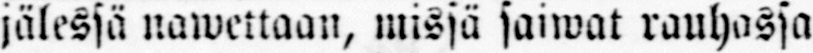jälessä nawettaan, missä saiwat rauhassa
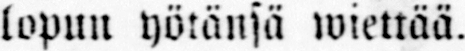lopun yötänsä wiettää.
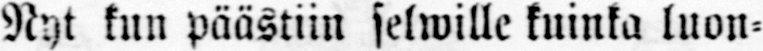Nyt kun päästiin selwille kuinka luon-
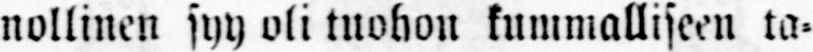nollinen syy oli tuohon kummalliseen ta-
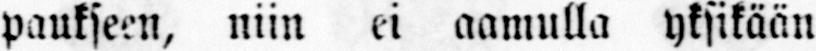paukseen, niin ei aamulla yksikään
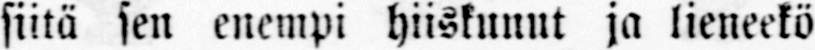siitä sen enempi hiiskunut ja lieneekö
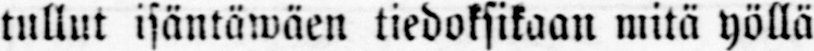tullut isäntäwäen tiedoksikaan mitä yöllä
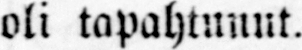oli tapahtunut.
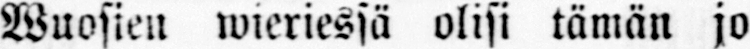Wuosien wieriessä olisi tämän jo
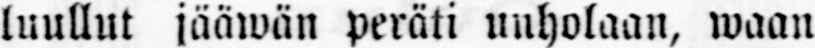luullut jääwän peräti unholaan, waan
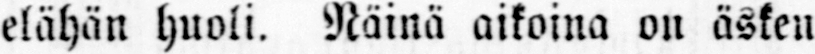elähän huoli. Näinä aikoina on äsken
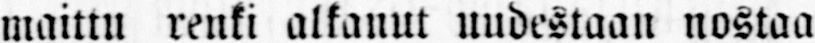maittu renki alkanut uudestaan nostaa
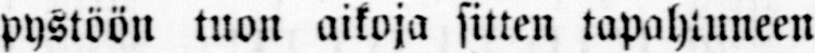pystöön tuon aikoja sitten tapahtuneen
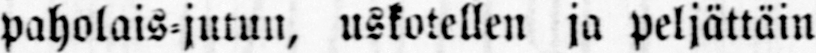paholais-jutun, uskotellen ja peljättäin
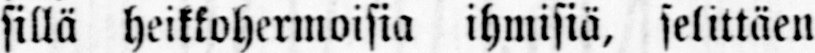sillä heikkohermoisia ihmisiä, selittäen
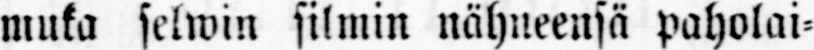muka selwin silmin nähneensä paholai-
